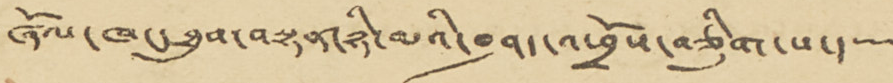ཞོལ་ཁང་ཐུབ་བསྟན་ཉི་མའི་བཤད་འཕྲོས་བཅིུག་པ་།
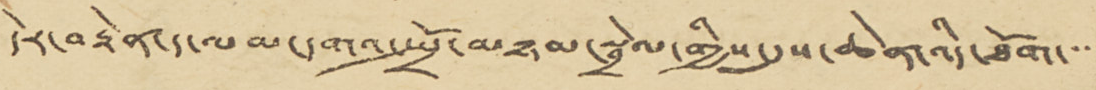དེར་བརྟེན་ད་ལམ་དགའ་སྤྲོ་མཉམ་སྦྲེལ་གྱིས་དུས་ཆེན་འདི་ཐོག་་་་
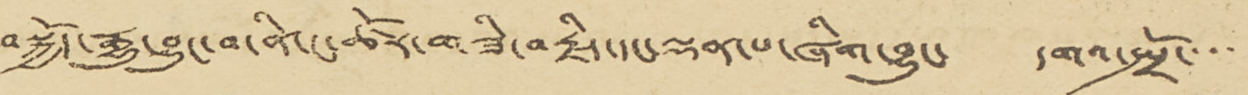བསྐྱོད་རྒྱུ་བྱུང་བ་ནི་ང་ཚོར་གཟི་བརྗིད་དང་ལྡན་པ་ཞིག་བྱུང་ དགའ་སྤྲོ་་་་་
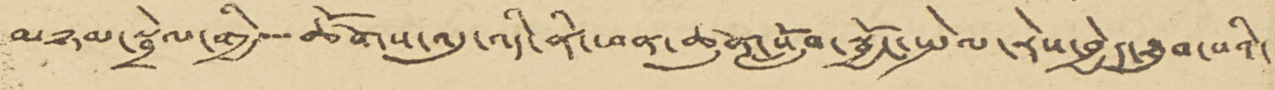མཉམ་སྦྲེལ་གྱི་་་ཚོགས་འདུ་འདི་ནི་ཕན་ཚུན་སློབ་སྦྱོང་སྤེལ་རེས་བྱེད་ཐུབ་པའི་
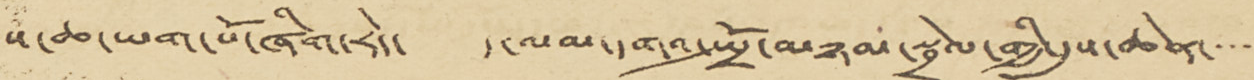ས་ཆ་ཡག་པོ་ཞིག་རེད་ ད་ལམ་དགའ་སྤྲོ་མཉམ་སྦྲེལ་གྱི་དུས་ཆེན་་་་་
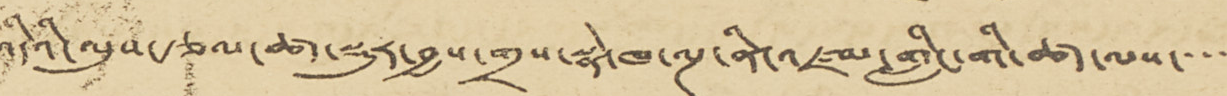འདིའི་ལུས་རྩལ་ཚད་སྡུར་བྱས་གྲས་སྣེ་ཁ་ལྔ་ནི་འཛམ་གླིང་གི་ཚད་ལས་་་་
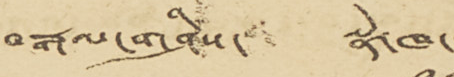བརྒལ་གཤིས་ སྣེ་ཁ་
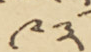༩༣
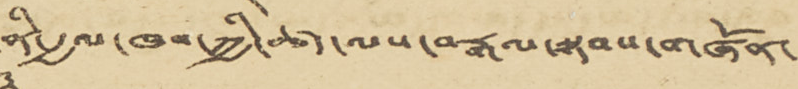ནི་རྒྱལ་ཁབ་ཀྱི་ཚད་ལས་བརྒལ་སྟབས་གཞོན་
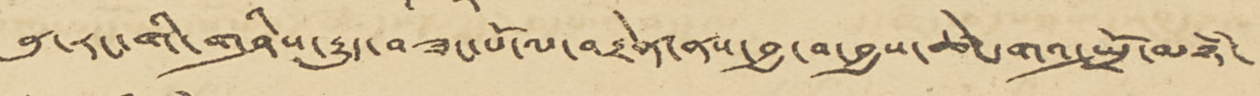ནུ་རང་གི་གཤིས་རྒྱུད་བཟང་པོ་ལ་བརྟེན་ནས་བྱ་བ་བྱས་ཚེ་དགའ་སྤྲོ་མཉཾ་
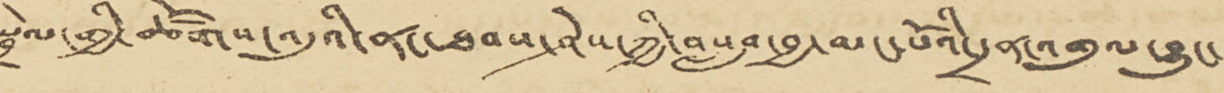སྦྲེལ་གྱི་ཚོགས་འདུའི་ནང་ཐབས་ཤེས་ཀྱི་བསལབ་བྱ་མང་པོའི་དྲན་འགུལ་བྱུང་
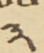༣
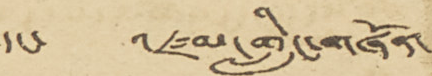དང་ འཛམ་གླིང་གཞོན་
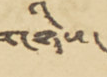གཉིས་
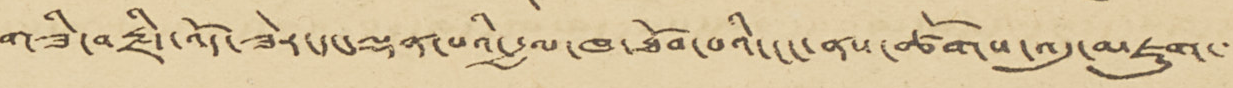གཟི་བརྗིད་འོད་ཟེར་དང་ལྡན་པའི་རྒྱལ་ཁ་ཐོབ་པའི་ངང་ནས་ཚོགས་འདུ་མཇུག་་་
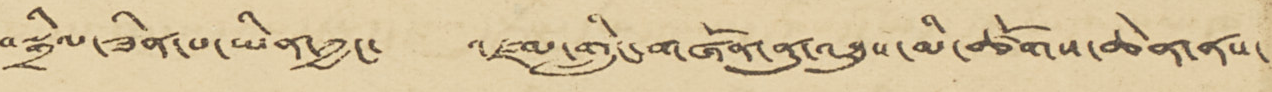བསྒྲིལ་ཟིན་པ་ཡིན་ཀྱང་ འཛམ་གླིང་གཞོན་ནུ་འཐུས་མི་ཚོགས་ཆེན་ནས་
